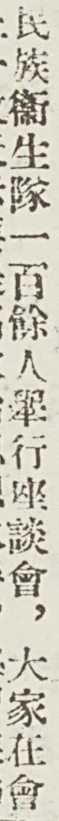民族衛生隊一百餘人舉行座談會，大家在會
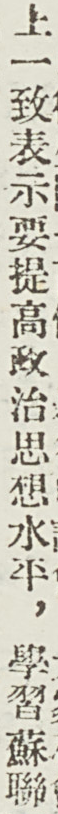上一致表示要提高政治思想水平，學習蘇聯
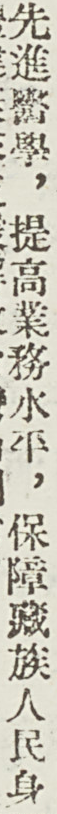先進醫學，提高業務水平，保障藏族人民身
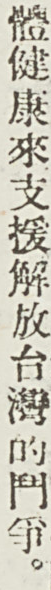體健康來支援解放台灣的鬥爭。
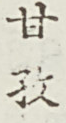甘孜
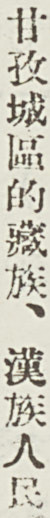甘孜城區的藏族、漢族人民
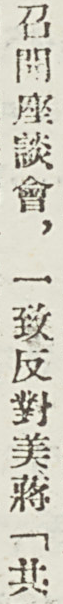召開座談會，一致反對美蔣「共
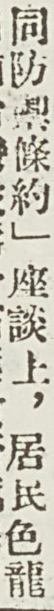同防禦條約」座談上，居民色龍
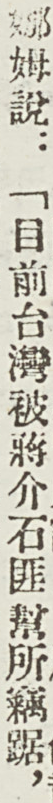娜姆說：「目前台灣被蔣介石匪幫所竊踞，
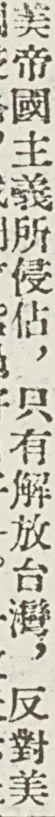美帝國主義所侵佔，只有解放台灣，反對美
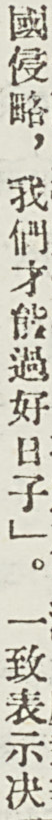國侵略，我們才能過好日子」。一致表示決
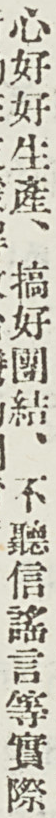心好好生產、搞好團結、不聽信謠言等實際
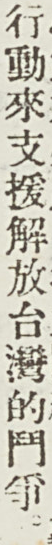行動來支援解放台灣的鬥爭。
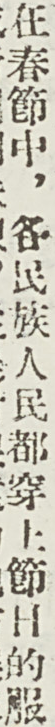在春節中，各民族人民都穿上節日的服
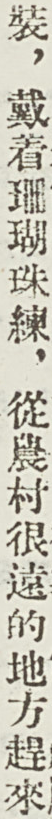裝，戴着珊瑚珠練，從農村很遠的地方趕來
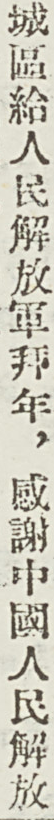城區給人民解放軍拜年，感謝中國人民解放
